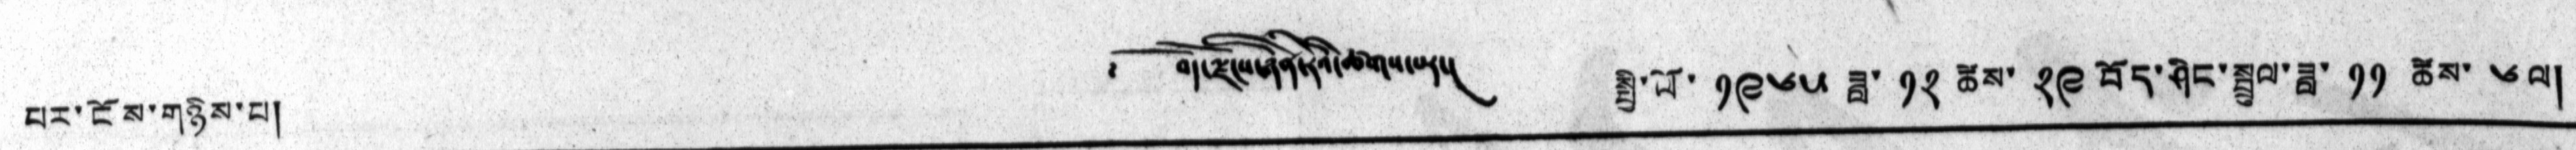པར་ངོས་གཉིས་པ། ༄༅། བོད་ལྗོངས་ཉིན་རེའི་ཚགས་པར། སྤྱི་ལོ་ ༡༩༦༥ ཟླ་ ༡༢ ཚེས་ ༢༩ བོད་ཤིང་སྦྲུལ་ཟླ་ ༡༡ ཚེས་ ༦ ལ།
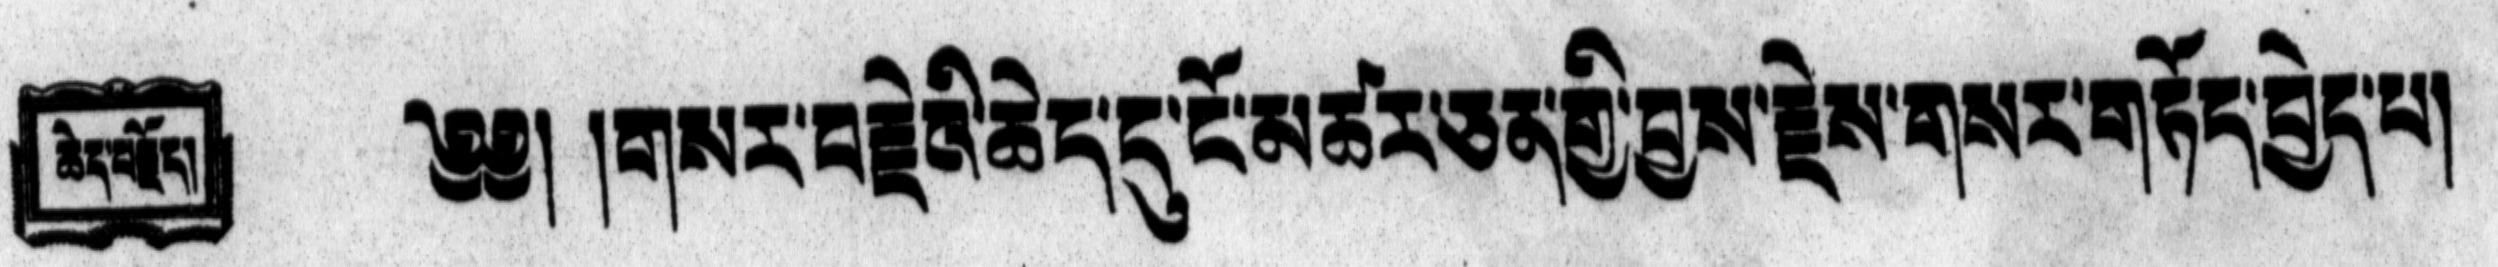ཆེད་བརྗོད།   ༄༅། །གསར་བརྗེའི་ཆེད་དུ་ངོ་མཚར་ཅན་གྱི་བྱས་རྗེས་གསར་གཏོད་བྱེད་པ།
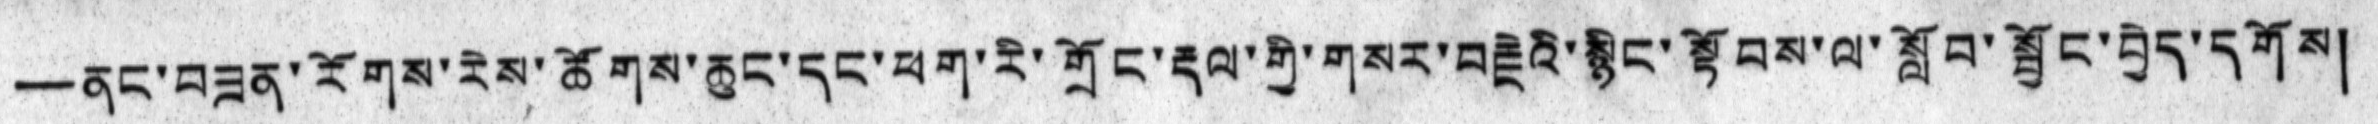—ནང་བཟན་རོགས་རེས་ཚོགས་ཆུང་དང་ཕག་རི་གྲོང་རྡལ་གྱི་གསར་བརྗེའི་སྙིང་སྟོབས་ལ་སློབ་སྦྱོང་བྱེད་དགོས།
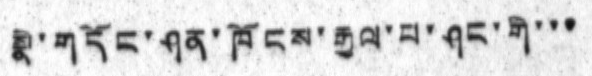སྣེ་གདོང་ཤན་ཁོངས་རྒྱལ་པ་ཤང་གི་་་
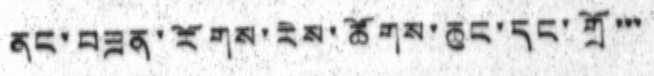ནང་བཟན་རོགས་རེས་ཚོགས་ཆུང་དང་གྲོ་་་
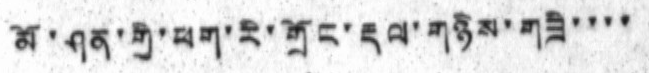མོ་ཤན་གྱི་ཕག་རི་གྲོང་རྡལ་གཉིས་གཟི་་་་
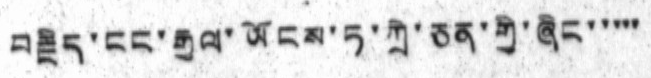བརྗིད་ངང་རྒྱལ་ཡོངས་ཏ་ཀྲི་ཅན་གྱི་ཞིང་་་་་
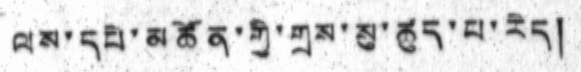ལས་དཔེ་མཚོན་གྱི་གྲས་སུ་ཚུད་པ་རེད།
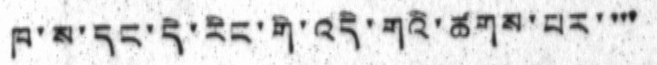ཁ་ས་དང་དེ་རིང་གི་འདི་གའི་ཚགས་པར་་་་
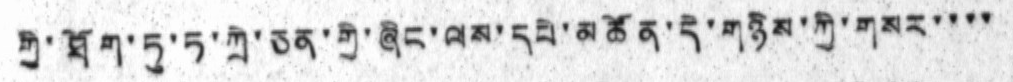གྱི་ཐོག་ཏུ་ཏ་ཀྲེ་ཅན་གྱི་ཞིང་ལས་དཔེ་མཚོན་དེ་གཉིས་ཀྱི་གསར་་་་
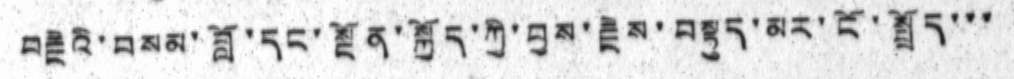བརྗེའི་བསམ་བློ་དང་སྔོན་སྐྱོད་ཀྱི་བྱས་རྗེས་བསྟུད་མར་ངོ་སྤྲོད་་་
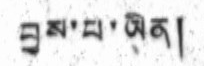བྱས་པ་ཡིན།
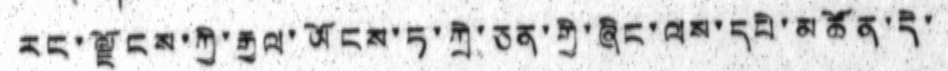རང་ལྗོངས་ཀྱི་རྒྱལ་ཡོངས་ཏ་ཀྲེ་ཅན་གྱི་ཞིང་ལས་དཔེ་མཚོན་དེ་
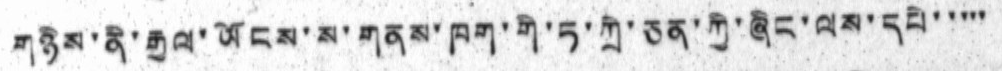གཉིས་ནི་རྒྱལ་ཡོངས་ས་གནས་ཁག་གི་ཏ་ཀྲེ་ཅན་ཀྱི་ཞིང་ལས་དཔེ་་་་་
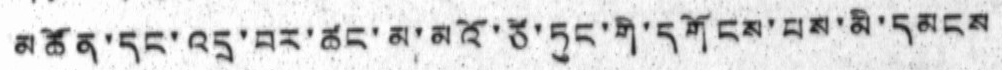མཚོན་དང་འདྲ་བར་ཚང་མ་མའོ་ཙེ་ཏུང་གི་དགོངས་པས་མི་དམངས
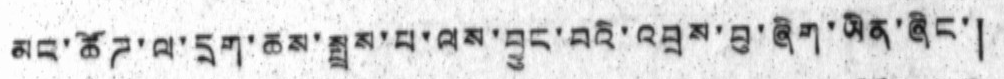མང་ཚོཌ་ལ་དྲག་ཆས་སྤྲས་པ་ལས་བྱུང་བའི་འབྲས་བུ་ཞིག་ཡིན་ཞིང་།
